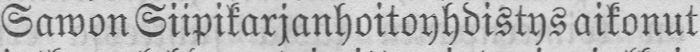Sawon Siipikarjanhoitoyhdistys aikonut
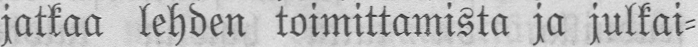jatkaa lehden toimittamista ja julkai-
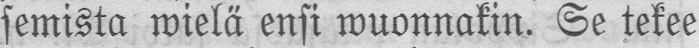semista wielä ensi wuonnakin. Se tekee
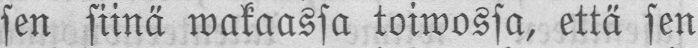sen siinä wakaassa toiwossa, että sen
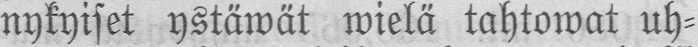nykyiset ystäwät wielä tahtowat uh-
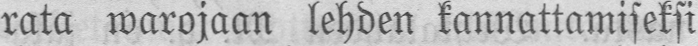rata warojaan lehden kannattamiseksi
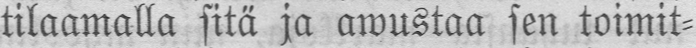tilaamalla sitä ja awustaa sen toimit-
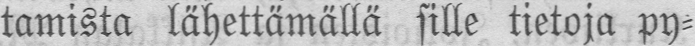tamista lähettämällä sille tietoja py-
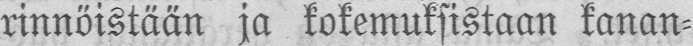rinnöistään ja kokemuksistaan kanan-
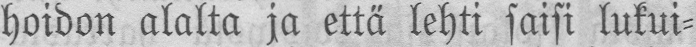hoidon alalta ja että lehti saisi lukui-
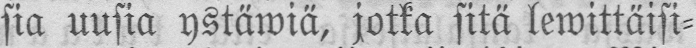sia uusia ystäwiä, jotka sitä lewittäisi-
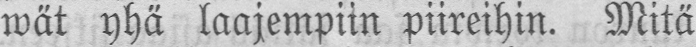wät yhä laajempiin piireihin. Mitä
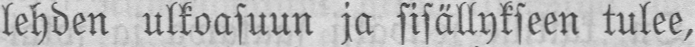lehden ulkoasuun ja sisällykseen tulee,
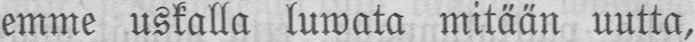emme uskalla luwata mitään uutta,
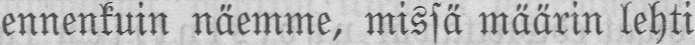ennenkuin näemme, missä määrin lehti
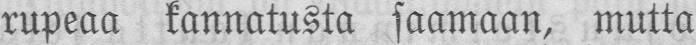rupeaa kannatusta saamaan, mutta
